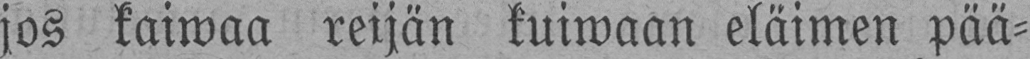jos kaiwaa reijän kuiwaan eläimen pää-
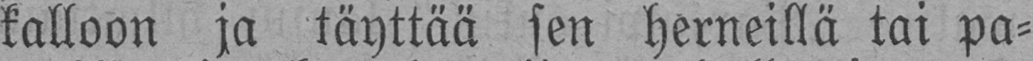kalloon ja täyttää sen herneillä tai pa-
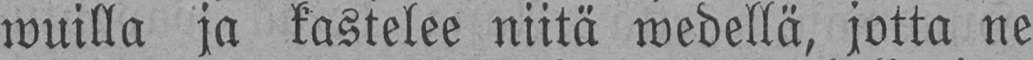wuilla ja kastelee niitä wedellä, jotta ne
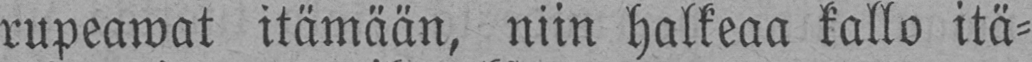rupeawat itämään, niin halkeaa kallo itä-
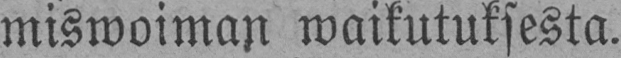miswoiman waikutuksesta.
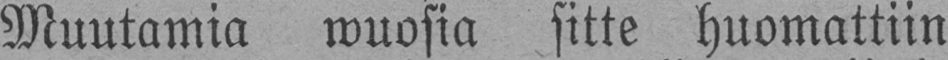Muutamia wuosia sitte huomattiin
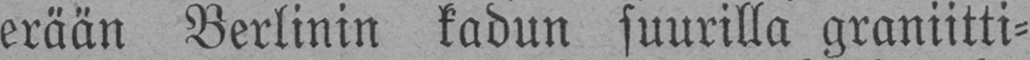erään Berlinin kadun suurilla graniitti-
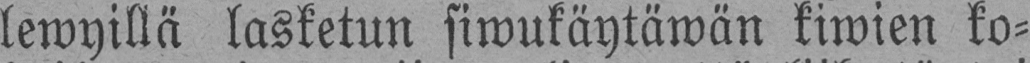lewyillä lasketun siwukäytäwän kiwien ko-
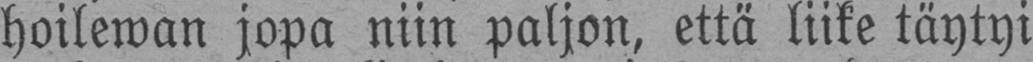hoilewan jopa niin paljon, että liike täytyi
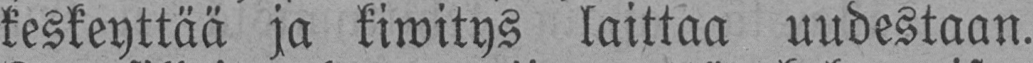keskeyttää ja kiwitys laittaa uudestaan.
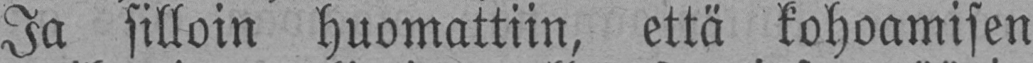Ja silloin huomattiin, että kohoamisen
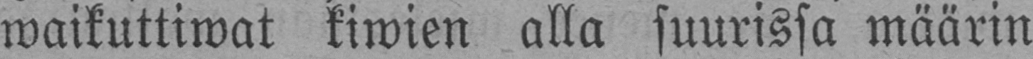waikuttiwat kiwien alla suurissa määrin
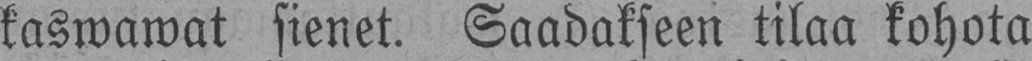kaswawat sienet. Saadakseen tilaa kohota
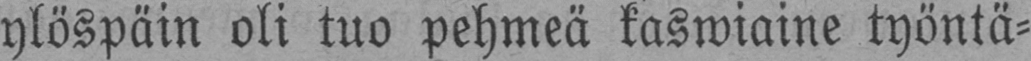ylöspäin oli tuo pehmeä kaswiaine työntä-
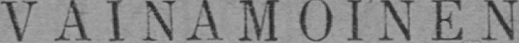VÄINÄ MÖINEN
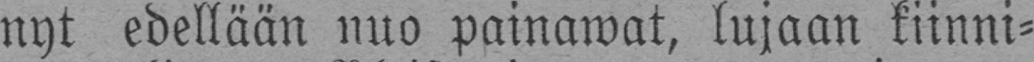nyt edellään nuo painawat, lujaan kiinni-
